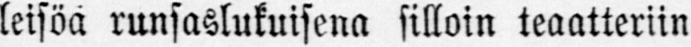leisöä runsaslukuisena silloin teaatteriin
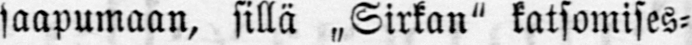saapumaan, sillä „Sirkan" katsomises-
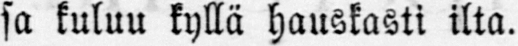sa kuluu kyllä hauskasti ilta.
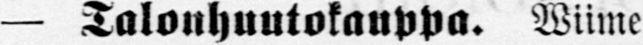— Talonhuutokauppa. Wiime
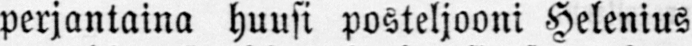perjantaina huusi posteljooni Helenius
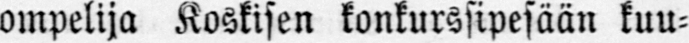ompelija Koskisen konkurssipesään kuu-
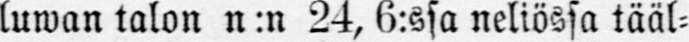luwan talon n:n 24,6:ssa neliössä tääl-
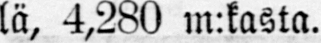lä, 4,280 m:kasta.
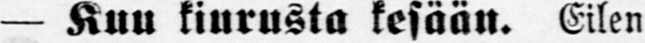— Kuu kiurusta kesään. Eilen
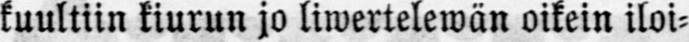kuultiin kiurun jo liwertelewän oikein iloi-
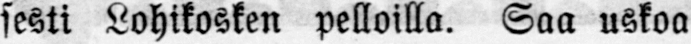sesti Lohikosken pelloilla. Saa uskoa
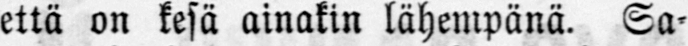että on kesä ainakin lähempänä. Sa-
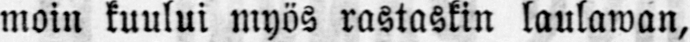moin kuului myös rastaskin laulawan,
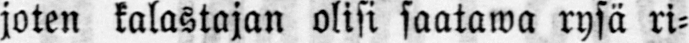joten kalastajan olisi saatawa rysä ri-
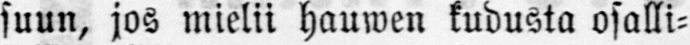suun, jos mielii hauwen kudusta osalli-
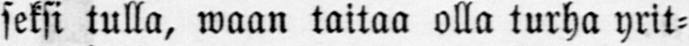seksi tulla, waan taitaa olla turha yrit-
